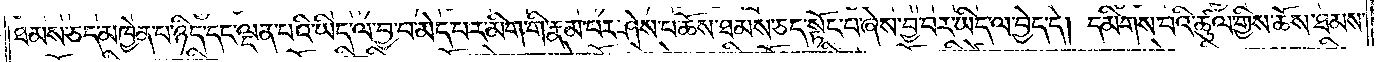ཐམས་ཅད་མཁྱེན་པ་ཉིད་དང་ལྡན་པའི་ཡིད་ལ་བྱ་བ་མེད་པར་མིག་གི་རྣམ་པར་ཤེས་པ་ཆོས་ཐམས་ཅད་སྟོང་པ་ཞེས་བྱ་བར་ཡིད་ལ་བྱེད་དེ། དམིགས་པའི་ཚུལ་གྱིས་ཆོས་ཐམས་
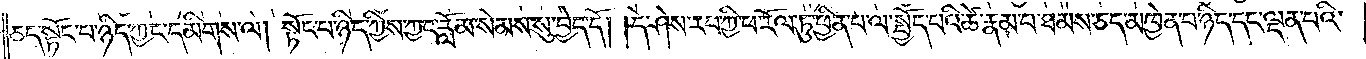ཅད་སྟོང་པ་ཉིད་ཀྱང་དམིགས་ལ། སྟོང་པ་ཉིད་ཀྱིས་ཀྱང་རློམ་སེམས་སུ་བྱེད་དོ། །དེ་ཤེས་རབ་ཀྱི་ཕ་རོལ་ཏུ་ཕྱིན་པ་ལ་སྤྱོད་པའི་ཚེ་རྣམ་པ་ཐམས་ཅད་མཁྱེན་པ་ཉིད་དང་ལྡན་པའི་
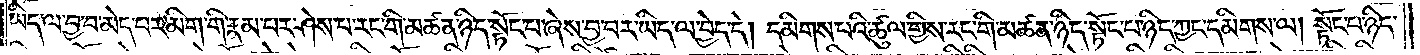ཡིད་ལ་བྱ་བ་མེད་པར་མིག་གི་རྣམ་པར་ཤེས་པ་རང་གི་མཚན་ཉིད་སྟོང་པ་ཞེས་བྱ་བར་ཡིད་ལ་བྱེད་དེ། དམིགས་པའི་ཚུལ་གྱིས་རང་གི་མཚན་ཉིད་སྟོང་པ་ཉིད་ཀྱང་དམིགས་ལ། སྟོང་པ་ཉིད་
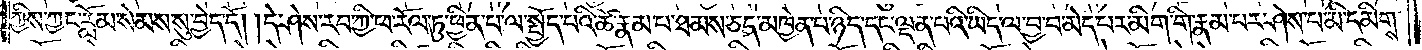ཀྱིས་ཀྱང་རློམ་སེམས་སུ་བྱེད་དོ། །དེ་ཤེས་རབ་ཀྱི་ཕ་རོལ་ཏུ་ཕྱིན་པ་ལ་སྤྱོད་པའི་ཚེ་རྣམ་པ་ཐམས་ཅད་མཁྱེན་པ་ཉིད་དང་ལྡན་པའི་ཡིད་ལ་བྱ་བ་མེད་པར་མིག་གི་རྣམ་པར་ཤེས་པ་མི་དམིགས་
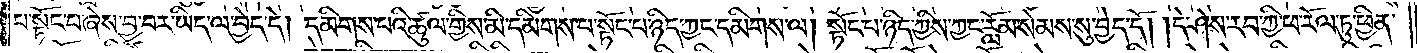པ་སྟོང་པ་ཞེས་བྱ་བར་ཡིད་ལ་བྱེད་དེ། དམིགས་པའི་ཚུལ་གྱིས་མི་དམིགས་པ་སྟོང་པ་ཉིད་ཀྱང་དམིགས་ལ། སྟོང་པ་ཉིད་ཀྱིས་ཀྱང་རློམ་སེམས་སུ་བྱེད་དོ། །དེ་ཤེས་རབ་ཀྱི་ཕ་རོལ་ཏུ་ཕྱིན་
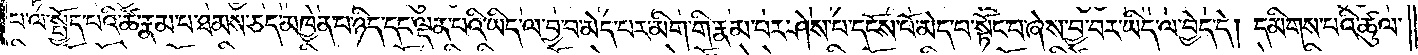པ་ལ་སྤྱོད་པའི་ཚེ་རྣམ་པ་ཐམས་ཅད་མཁྱེན་པ་ཉིད་དང་ལྡན་པའི་ཡིད་ལ་བྱ་བ་མེད་པར་མིག་གི་རྣམ་པར་ཤེས་པ་དངོས་པོ་མེད་པ་སྟོང་པ་ཞེས་བྱ་བར་ཡིད་ལ་བྱེད་དེ། དམིགས་པའི་ཚུལ་
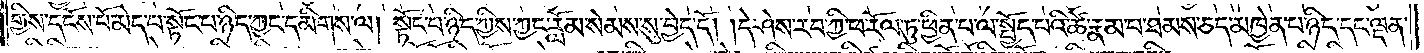གྱིས་དངོས་པོ་མེད་པ་སྟོང་པ་ཉིད་ཀྱང་དམིགས་ལ། སྟོང་པ་ཉིད་ཀྱིས་ཀྱང་རློམ་སེམས་སུ་བྱེད་དོ། །དེ་ཤེས་རབ་ཀྱི་ཕ་རོལ་ཏུ་ཕྱིན་པ་ལ་སྤྱོད་པའི་ཚེ་རྣམ་པ་ཐམས་ཅད་མཁྱེན་པ་ཉིད་དང་ལྡན་
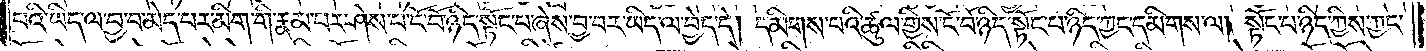པའི་ཡིད་ལ་བྱ་བ་མེད་པར་མིག་གི་རྣམ་པར་ཤེས་པ་ངོ་བོ་ཉིད་སྟོང་པ་ཞེས་བྱ་བར་ཡིད་ལ་བྱེད་དེ། དམིགས་པའི་ཚུལ་གྱིས་ངོ་བོ་ཉིད་སྟོང་པ་ཉིད་ཀྱང་དམིགས་ལ། སྟོང་པ་ཉིད་ཀྱིས་ཀྱང་
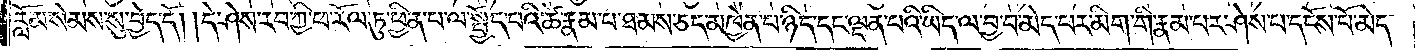རློམ་སེམས་སུ་བྱེད་དོ། །དེ་ཤེས་རབ་ཀྱི་ཕ་རོལ་ཏུ་ཕྱིན་པ་ལ་སྤྱོད་པའི་ཚེ་རྣམ་པ་ཐམས་ཅད་མཁྱེན་པ་ཉིད་དང་ལྡན་པའི་ཡིད་ལ་བྱ་བ་མེད་པར་མིག་གི་རྣམ་པར་ཤེས་པ་དངོས་པོ་མེད་
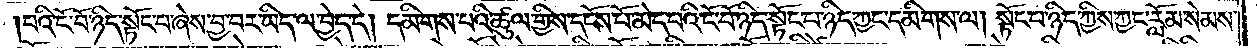པའི་ངོ་བོ་ཉིད་སྟོང་པ་ཞེས་བྱ་བར་ཡིད་ལ་བྱེད་དེ། དམིགས་པའི་ཚུལ་གྱིས་དངོས་པོ་མེད་པའི་ངོ་བོ་ཉིད་སྟོང་པ་ཉིད་ཀྱང་དམིགས་ལ། སྟོང་པ་ཉིད་ཀྱིས་ཀྱང་རློམ་སེམས་
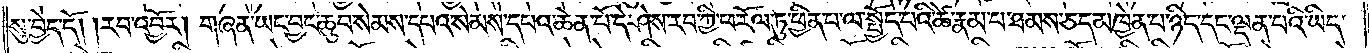སུ་བྱེད་དོ། །རབ་འབྱོར། གཞན་ཡང་བྱང་ཆུབ་སེམས་དཔའ་སེམས་དཔའ་ཆེན་པོ་དེ་ཤེས་རབ་ཀྱི་ཕ་རོལ་ཏུ་ཕྱིན་པ་ལ་སྤྱོད་པའི་ཚེ་རྣམ་པ་ཐམས་ཅད་མཁྱེན་པ་ཉིད་དང་ལྡན་པའི་ཡིད་
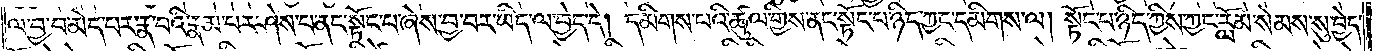ལ་བྱ་བ་མེད་པར་རྣ་བའི་རྣམ་པར་ཤེས་པ་ནང་སྟོང་པ་ཞེས་བྱ་བར་ཡིད་ལ་བྱེད་དེ། དམིགས་པའི་ཚུལ་གྱིས་ནང་སྟོང་པ་ཉིད་ཀྱང་དམིགས་ལ། སྟོང་པ་ཉིད་ཀྱིས་ཀྱང་རློམ་སེམས་སུ་བྱེད་
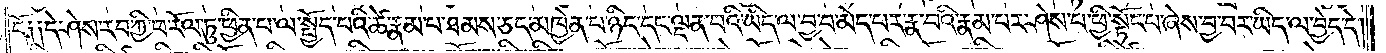དོ༑ ༑དེ་ཤེས་རབ་ཀྱི་ཕ་རོལ་ཏུ་ཕྱིན་པ་ལ་སྤྱོད་པའི་ཚེ་རྣམ་པ་ཐམས་ཅད་མཁྱེན་པ་ཉིད་དང་ལྡན་པའི་ཡིད་ལ་བྱ་བ་མེད་པར་རྣ་བའི་རྣམ་པར་ཤེས་པ་ཕྱི་སྟོང་པ་ཞེས་བྱ་བར་ཡིད་ལ་བྱེད་དེ།
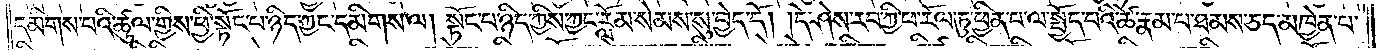དམིགས་པའི་ཚུལ་གྱིས་ཕྱི་སྟོང་པ་ཉིད་ཀྱང་དམིགས་ལ། སྟོང་པ་ཉིད་ཀྱིས་ཀྱང་རློམ་སེམས་སུ་བྱེད་དོ། །དེ་ཤེས་རབ་ཀྱི་ཕ་རོལ་ཏུ་ཕྱིན་པ་ལ་སྤྱོད་པའི་ཚེ་རྣམ་པ་ཐམས་ཅད་མཁྱེན་པ་
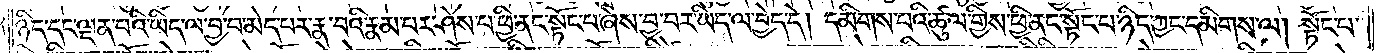ཉིད་དང་ལྡན་པའི་ཡིད་ལ་བྱ་བ་མེད་པར་རྣ་བའི་རྣམ་པར་ཤེས་པ་ཕྱི་ནང་སྟོང་པ་ཞེས་བྱ་བར་ཡིད་ལ་བྱེད་དེ། དམིགས་པའི་ཚུལ་གྱིས་ཕྱི་ནང་སྟོང་པ་ཉིད་ཀྱང་དམིགས་ལ། སྟོང་པ་
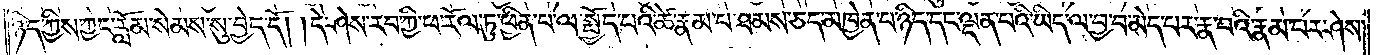ཉིད་ཀྱིས་ཀྱང་རློམ་སེམས་སུ་བྱེད་དོ། །དེ་ཤེས་རབ་ཀྱི་ཕ་རོལ་ཏུ་ཕྱིན་པ་ལ་སྤྱོད་པའི་ཚེ་རྣམ་པ་ཐམས་ཅད་མཁྱེན་པ་ཉིད་དང་ལྡན་པའི་ཡིད་ལ་བྱ་བ་མེད་པར་རྣ་བའི་རྣམ་པར་ཤེས་
